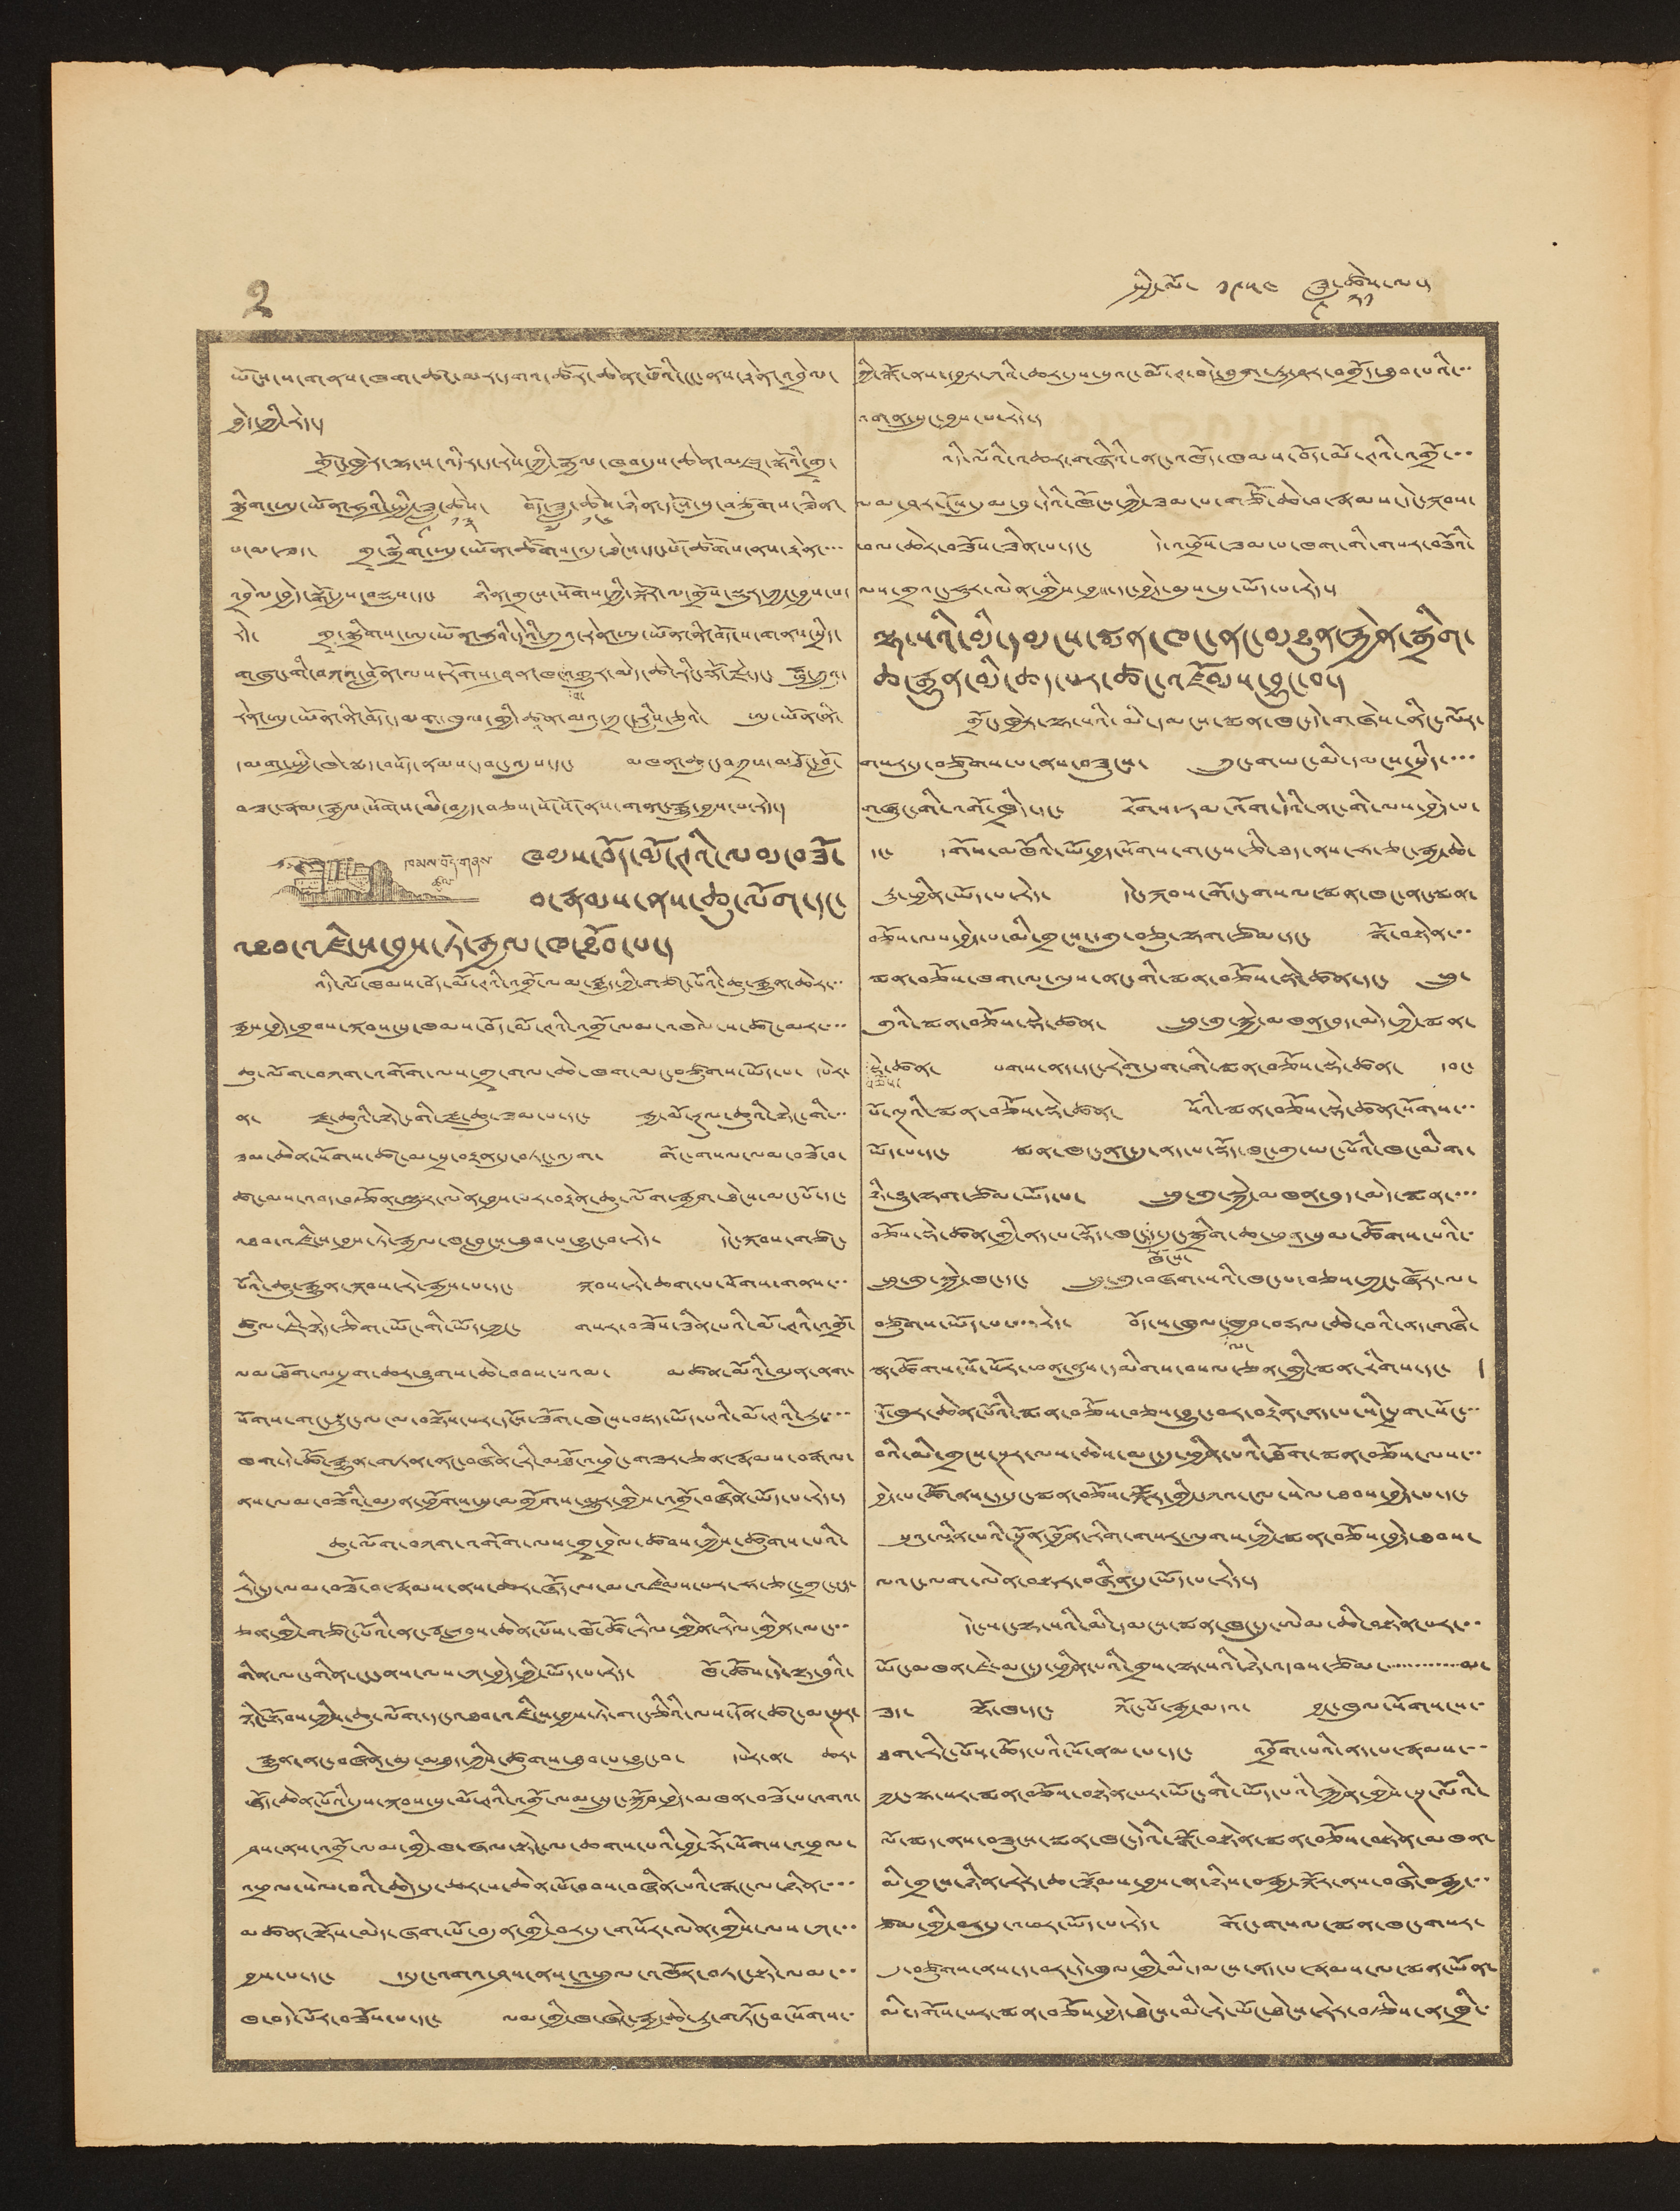2 སྤྱི་ལོ་ ༡༩༥༤ ཟླ་
༩
ཚེས་
༢༡
ལ་།
ཡོངས་ས་གནས་ཁག་ཚང་མར་དགའ་ཚོར་ཆེན་པོའི་ངང་ནས་རྟེན་འབྲེལ་
བྱེད་ཀྱི་རེད་།
གྲོང་ཁྱེར་ལྷ་ས་འདིར་ད་རེས་ཀྱི་རྒྱལ་ཁབ་དུས་ཆེན་མཛད་སྒོའི་གྲྭ་
སྒྲིག་ཨུ་ཡོན་ཧུའི་སྤྱི་ཟླ་
༩
ཚེས་
༡༣
བོད་ཟླ་
༧
ཚེས་
༡༦
ཉིན་དངོས་སུ་བཙུགས་ཟིན་
པ་མ་ཟད་ གྲྭ་སྒྲིག་ཨུ་ཡོན་ཚོགས་འདུ་ཐེངས་དང་པོ་ཚོགས་ནས་རྟེན་་་་
འབྲེལ་བྱེད་སྒོ་རྒྱས་བསྡུས་དང་ ཉིན་གྲངས་སོགས་ཀྱི་སྐོར་ལ་གྲོས་སྡུར་ཀྱང་བྱས་པ་
རེད་ གྲྭ་སྒྲིགས་ཨུ་ཡོན་ཧུའི་དེའི་ཀུའུ་རེན་ཨུ་ཡོན་ནི་བོད་ས་གནས་སྲིད་
གཞུང་གི་བཀའ་བློན་ལས་རོགས་ཤན་ཁ་
བ་
འགྱུར་མེད་ཚེ་རིང་རྡོ་རྗེ་དང་ ཧྥུ་ཀྲུའུ་
རེན་ཨུ་ཡོན་ནི་བོད་དམག་ཁུལ་གྱི་ཚཱན་མའུ་ཀྲང་རླིས་ཅུའེ་ ཨུ་ཡོན་ནི་
དམག་སྤྱི་ཁེ་སྨད་བསོད་ནམས་དབང་འདུས་དང་ མཁན་ཆུང་བཀྲས་མཐོང་བློ་
བཟང་རྣམ་རྒྱལ་སོགས་མི་བརྒྱད་བཅས་སོ་སོ་ནས་གནང་རྒྱུ་བྱས་པ་རེད་།
ཁམས་བོད་གནས་
ཚུལ་
ཁམས་བོད་མོ་ཊའི་ལམ་བཟོ་
བ་རྣམས་ནས་ཆུ་ལོག་དང་
འཐབ་འཛིངས་བྱས་ཏེ་རྒྱལ་ཁ་ཐོབ་པ་།
འདི་ལོ་ཁམས་བོད་མོ་ཊའི་འགྲོ་ལམ་རྒྱུད་ཀྱི་གཙང་པོའི་ཆུ་རྒྱུན་ཆེར་་་
རྒྱས་བྱེད་གྲབས་སྐབས་སུ་ཁམས་བོད་མོ་ཊའི་འགྲོ་ལམ་འཁེལ་ས་ཚང་མར་་་་
ཆུ་ལོག་བཀག་འགོག་ལས་གྲྭ་གལ་ཆེ་ཁག་མང་བཙུགས་ཡོད་པ་ དཔེར་
ན་ རྫ་ཆུའི་སྟེང་གི་རྫ་ཆུ་ཟམ་པ་དང་ རྒྱ་མོ་རྔུལ་ཆུའི་སྟེང་གི་་་
ཟམ་ཆེན་སོགས་ཚང་མ་སྲ་བརྟན་དུ་བཏང་འདུག་ གོང་གསལ་ལམ་བཟོ་བ་
ཚང་མས་འབད་བརྩོན་ལྷུར་ལེན་བྱས་པར་བརྟེན་ཆུ་ལོག་རྒྱག་ཐེངས་མང་པོ་དང་
འཐབ་འཛིངས་བྱས་ཏེ་རྒྱལ་ཁ་བླངས་ཐུབ་པ་བྱུང་བ་རེད་ དེང་སྐབས་གཙང་
པོའི་ཆུ་རྒྱུན་སྐབས་རེ་རྒྱས་པ་དང་ སྐབས་རེ་ཆག་པ་སོགས་གནས་་་
ཚུལ་ཇི་སྙེད་ཅིག་ཡོང་གི་ཡོད་ཀྱང་ གསར་བཟོས་ཟིན་པའི་མོ་ཊའི་འགྲོ་
ལམ་ཐོག་ལ་དྲག་ཆར་ཤུགས་ཆེ་བབས་པའམ་ མཚན་མོའི་མུན་ནག་
སོགས་གང་སྡུང་ལ་ལ་བལྟོས་པར་དངོས་ཟོག་ཁེངས་བསྡད་ཡོད་པའི་མོ་ཊའི་རུ་་་་
ཁག་དེ་ཚོ་རྒྱུན་གཏན་ནང་བཞིན་རི་མཐོ་འཕྲེང་གཟར་ཅན་རྣམས་བརྒལ་
ནས་ལམ་བཟོའི་མདུན་ཕྱོགས་སུ་མགྱོགས་མྱུར་གྱིས་འགྲོ་བཞིན་ཡོད་པ་རེད་།
ཆུ་ལོག་བཀག་འགོག་ལས་གྲྭ་བྲེལ་ཚབས་ཀྱིས་ཚུགས་པའི་
རིང་དུ་ལམ་བཟོ་བ་རྣམས་ནས་ཆར་ཞོད་ལ་མ་འཛེམས་པར་ཧ་ཅང་གྲང་ངད་
ཅན་གྱི་གཙང་པོའི་ནང་རྦ་རླབས་ཆེན་མོས་ཁོ་ཚོ་རིལ་གྱིན་རིལ་གྱིན་ལང་་་
གིན་ལང་གིན་ངང་ནས་ལས་ཀ་བྱེད་ཀྱི་ཡོད་པ་རེད་ ཁོ་ཚོས་དེ་ལྟ་བུའི་
སྙིང་སྟོབས་ཀྱིས་ཆུ་ལོག་དང་འཐབ་འཛིངས་བྱས་ཏེ་གང་ཅིའི་ལས་དོན་ཚང་མ་སྔར་
རྒྱུན་ནང་བཞིན་མུ་མཐུད་ཀྱིས་ཚུགས་ཐུབ་པ་བྱུང་བ་ དཔེར་ན་ ཆར་
ཞོད་ཆེན་པོའི་དུས་སྐབས་སུ་མོ་ཊའི་འགྲོ་ལམ་སྲུང་སྐྱོབ་བྱེད་མཁན་བཟོ་པ་འགའ་
ཤས་ནས་འགྲོ་ལམ་གྱི་ཁ་ཞལ་སྟེང་ལ་ཆགས་པའི་བྱེ་རྡོ་སོགས་འཕྲལ་
འཕྲལ་སེལ་བའི་ཆེད་དུ་ཆར་པ་ཆེན་པོ་བབས་བཞིན་པའི་སྒང་ལ་ཉིན་་་་
མཚན་སྡོས་མེད་ཞག་པོ་བདུན་གཡི་བར་དུ་གསོར་ལེན་གྱིས་ལས་ཀ་་་
བྱས་པ་དང་ ད་དུང་འགའ་ཤས་ནས་འཕྲུལ་འཁོར་བཏང་སྟེ་ལམ་་་
ཁ་བདེ་པོར་བཟོས་པ་དང་ ལམ་གྱི་ཁ་ཞེང་རྒྱ་ཆེ་རུ་གཏོང་བ་སོགས་་
ཀྱི་སྒོ་ནས་དབྱར་ཀའི་ཆར་དུས་སུའང་མོ་ཊ་བདེ་བླག་ཏུ་ཤར་བགྲོད་ཐུབ་པའི་་་
འགན་སྲུང་བྱས་པ་རེད་།
འདི་ལོའི་འཆར་གཞིའི་ནང་འཁོད་ཁམས་བོད་མོ་ཊའི་འགྲོ་་་
ལམ་ཤར་ངོས་དུམ་བུ་དེའི་ཁོངས་ཀྱི་ཟམ་པ་གཙོ་ཆེ་བ་རྣམས་དེང་སྐབས་
ཕལ་ཆེར་བཟོས་ཟིན་པ་དང་ དེ་འཕྲོས་ཟམ་པ་ཁག་གི་གསར་བཟོའི་
ལས་གྲའང་ཧུར་ལེན་གྱིས་བྱས་དང་བྱེད་མུས་སུ་ཡོད་པ་རེད་།
ལྷ་སའི་མི་དམངས་སྨན་ཁང་ནང་མཐུན་རྐྱེན་སྒྲིག་
ཆ་རྒྱུན་མི་ཆད་པར་ཚང་འཛོམས་བྱུང་བ་།
གྲོང་ཁྱེར་ལྷ་སའི་མི་དམངས་སྨན་ཁང་དེ་གཞེས་ནིང་ལོར་
གསར་དུ་བཙུགས་པ་ནས་བཟུངས་ ཀྲུང་གཡང་མི་དམངས་སྲིད་་་་
གཞུང་གི་འགོ་ཁྲིད་དང་ རོགས་རམ་འོག་དེའི་ནང་གི་ལས་བྱེད་པ་
དང་ དགོས་མཁོའི་ཡོ་བྱད་སོགས་གང་ས་ཅི་ཐད་ནས་ཧ་ཅང་རྒྱ་ཆེ་
རུ་ཕྱིན་ཡོདཔ་པ་རེད་ དེངས་སྐབས་གོང་གསལ་སྨན་ཁང་ནང་སྨན་
བཅོས་ལས་བྱེད་པ་མི་གྲངས་དགུ་བཅུ་ལྷག་ཙམ་དང་ སྒོ་བསྟེན་་་
སྨན་བཅོས་ཁག་ལ་ལུས་ནང་གི་སྨན་བཅོས་སྡེ་ཚན་དང་ ཕྲུ་
གུའི་སྨན་བཅོས་སྡེ་ཚན་ ཕྲུ་གུ་སྐྱེ་མཁན་བུད་མེད་ཀྱི་སྨན་
བཅོས་
སྡེ་ཚན་ པགས་ནད་དང་རེག་དུག་གི་སྨན་བཅོས་སྡེ་ཚན་ དབང་
པོ་ལྔའི་སྨན་བཅོས་སྡེ་ཚན་ སོའི་སྨན་བཅོས་སྡེ་ཚན་སོགས་་་
ཡོད་པ་དང་ སྨན་ཁང་ནང་དུ་ནད་པ་སྡོད་ཁང་གུ་ཡང་པོའི་ཁང་མིག་
ཉི་ཤུ་ལྷག་ཙམ་ཡོད་པ་ ཕྲུ་གུ་སྐྱེ་མཁན་བུད་མེད་སྨན་་་་
བཅོས་སྡེ་ཚན་གྱི་ནད་པ་སྡོད་ཁང་
ཁོངས་
ད་དུང་སྒྲིག་ཆ་ཕུན་སུམ་ཚོགས་པའི་་
ཕྲུ་གུ་སྐྱེ་ཁང་དང་ ཕྲུ་གུ་བཞག་སའི་ཁང་པ་བཅས་ཀྱང་ཞོར་ལ་
བཙུགས་ཡོད་པ་རེད་ བོད་ས་ཁུལ་
ལ་
ཁྱབ་བརྡལ་ཆེ་བའི་ནད་གཞི་
སྣ་ཚོགས་སོ་སོར་ཕན་ནུས་དམིགས་བསལ་ཅན་གྱི་སྨན་རིགས་དང་ །
དོ་ཁུར་ཆེན་པོའི་སྨན་བཅོས་བཅས་བྱུང་བར་བརྟེན་ནད་པ་སིང་དྲག་སོང་་་
བའི་མི་གྲངས་སྔར་ལས་ཆེས་མང་དུ་ཕྱིན་པའི་ཐོག་སྨན་བཅོས་ལས་་་
བྱེད་པ་ཚོ་ནས་ད་དུང་སྨན་བཅོས་སྐོར་གྱི་དཀའ་ངལ་སེལ་ཐབས་བྱེད་པ་དང་
སུའུ་ལཱིན་པའི་སྔོན་བྱོན་རིག་གསར་ལུགས་ཀྱི་སྨན་བཅོས་བྱེད་ཐབས་
ལའང་ལག་ལེན་བསྟར་བཞིན་དུ་ཡོད་པ་རེད་།
དེང་སང་ལྷ་སའི་མི་དམངས་སྨན་ཁང་དུ་ཨེམ་ཆི་བསྟེན་པར་་་
ཡོང་མཁན་ཇེ་མང་དུ་ཕྱིན་པའི་གྲས་ལྷ་སའི་ཉེ་འདབས་ཙམ་་་་་་་་་་་་་མ་
ཟད་ ལྷོ་ཁ་དང་ ཀོང་པོ་རྒྱ་མདའ་ བྱང་ཁུལ་སོགས་ས་་
ཐག་རིང་པོས་ཆོད་པའི་སོ་ནམ་པ་དང་ འབྲོག་པའི་ནད་པ་རྣམས་་་
ཀྱང་ལྷ་སར་སྨན་བཅོས་བསྟེན་པར་ཡོང་གི་ཡོད་པའི་རྐྱེན་གྱིས་སྔ་ལོའི་
ལོ་སྨད་ནས་བཟུངས་སྨན་ཁང་དེའི་སྒོ་བསྟེན་སྨན་བཅོས་བསྟེན་མཁན་
མི་གྲངས་ཉིན་རེར་ཆ་སྙོམས་བྱས་ན་ཉིས་བརྒྱ་སྐོར་ནས་བཞི་བརྒྱ་་་
ཙམ་གྱི་བར་དུ་འཕར་ཡོད་པ་རེད་ གོང་གསལ་སྨན་ཁང་གསར་
དུ་བཙུགས་ནས་ད་བར་དེ་ཁུལ་གྱི་མི་དམངས་ནད་པ་རྣམས་ལ་སྨན་ཡོན་
མི་དགོས་པར་སྨན་བཅོས་བྱེད་ཐེངས་མི་རེ་ཡོང་ཐེངས་རེར་བརྩིས་ན་ཁྲི་་
